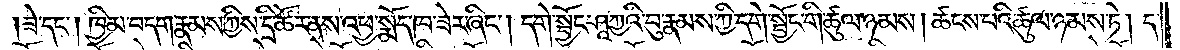ཟེ་དང༌། ཁྱིམ་བདག་རྣམས་ཀྱིས་དྲི་ཚོར་ནས་འཕྱ་སྨོད་ཁ་ཟེར་ཞིང༌། དགེ་སྦྱོང་ཤཱཀྱའི་བུ་རྣམས་ཀྱི་དགེ་སྦྱོང་གི་ཚུལ་ཉམས། ཚངས་པའི་ཚུལ་ཉམས་ཏེ། ད་
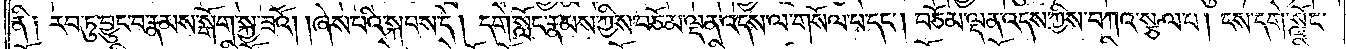ནི༑ རབ་ཏུ་བྱུང་བ་རྣམས་སྒོག་སྐྱ་ཟའོ། །ཞེས་པའི་སྐབས་དེ། དགེ་སློང་རྣམས་ཀྱིས་བཅོམ་ལྡན་འདས་ལ་གསོལ་པ་དང༌། བཅོམ་ལྡན་འདས་ཀྱིས་བཀའ་སྩལ་པ། ངས་དགེ་སློང་
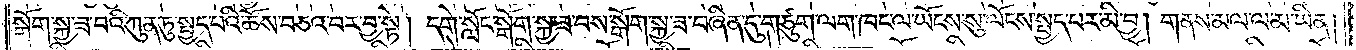སྒོག་སྐྱ་ཟ་བའི་ཀུན་ཏུ་སྤྱད་པའི་ཆོས་བཅའ་བར་བྱ་སྟེ། དགེ་སློང་སྒོག་སྐྱ་ཟ་བས་སྒོག་སྐྱ་ཟ་བཞིན་དུ་གཙུག་ལག་ཁང་ལ་ཡོངས་སུ་ལོངས་སྤྱད་པར་མི་བྱ། གནས་མལ་ལ་མ་ཡིན།
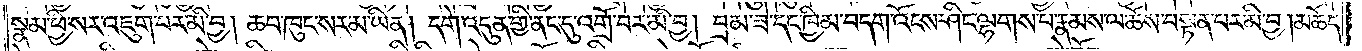སྣམ་ཕྱི་སར་འཇུག་པར་མི་བྱ། ཆབ་ཁུང་སར་མ་ཡིན། དགེ་འདུན་གྱི་ནང་དུ་འགྲོ་བར་མི་བྱ། བྲམ་ཟེ་དང་ཁྱིམ་བདག་འོངས་ཤིང་ལྷགས་པ་རྣམས་ལ་ཆོས་བསྟན་པར་མི་བྱ། མཆོད་
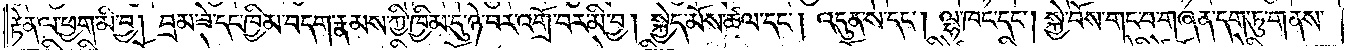རྟེན་ལ་ཕྱག་མི་བྱ། བྲམ་ཟེ་དང་ཁྱིམ་བདག་རྣམས་ཀྱི་ཁྱིམ་དུ་ཉེ་བར་འགྲོ་བར་མི་བྱ། སྐྱེད་མོས་ཚལ་དང༌། འདུན་ས་དང༌། ལྷ་ཁང་དང༌། སྐྱེ་བོས་གང་བ་གཞན་དག་ཏུ་གནས་
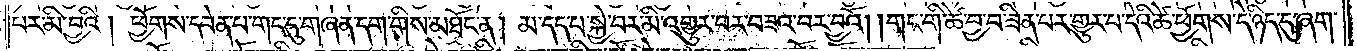པར་མི་བྱའི། ཕྱོགས་དབེན་པ་གང་དུ་གཞན་དག་གིས་མཐོང་ན། མ་དད་པ་སྐྱེ་བར་མི་འགྱུར་བར་བཟའ་བར་བྱའོ། །གང་གི་ཚེ་བྱ་བ་ཟིན་པར་གྱུར་པ་དེའི་ཚེ་ཕྱོགས་དེ་ཉིད་དུ་ཞག་
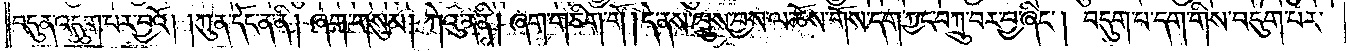བདུན་འདུག་པར་བྱའོ། །ཀུན་དོང་ན་ནི། ཞག་གསུམ། ཀེའུ་ན་ནི། ཞག་གཅིག་གོ །དེ་ནས་ཁྲུས་བྱས་ལ་ཆོས་གོས་དག་ཀྱང་བཀྲུ་བར་བྱ་ཞིང༌། བདུག་པ་དག་གིས་བདུག་པར་
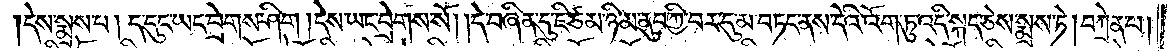དེས་སྨྲས་པ། ད་དུང་ཡང་བྲེགས་ཤིག །དེས་ཡང་བྲེགས་སོ། །དེ་བཞིན་དུ་ཇི་ཙམ་ཉི་མ་ནུབ་ཀྱི་བར་དུ་མ་བཏང་ནས་དེའི་འོག་ཏུ་འདི་སྐད་ཅེས་སྨྲས་ཏེ། བཀྲེན་པ།
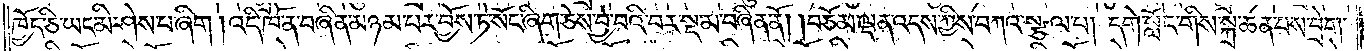ཁྱོད་ཅི་ཡང་མི་ཤེས་པ་ཞིག ། འདི་ཁོ་ན་བཞིན་མཉམ་པར་བྱོས་ཏེ་སོང་ཞིག་ཅེས་བྱ་བའི་བར་སྔ་མ་བཞིན་ནོ། །བཅོམ་ལྡན་འདས་ཀྱིས་བཀའ་སྩལ་པ། དགེ་སློང་གིས་སྐྲ་ཆན་པས་བྲེག་
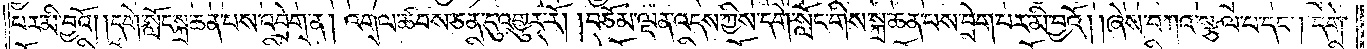པར་མི་བྱའོ། །དགེ་སློང་སྐྲ་ཆན་པས་འབྲེག་ན། འགལ་ཚབས་ཅན་དུ་འགྱུར་རོ། །བཅོམ་ལྡན་འདས་ཀྱིས་དགེ་སློང་གིས་སྐྲ་ཆན་པས་བྲེག་པར་མི་བྱའོ། །ཞེས་བཀའ་སྩལ་པ་དང༌། དགེ་
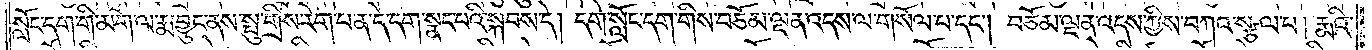སློང་དག་གི་མགོ་ལ་རྨ་བྱུང་ནས་སྤུ་གྲིས་རེག་པ་ན་དེ་དག་སྣང་བའི་སྐབས་དེ། དགེ་སློང་དག་གིས་བཅོམ་ལྡན་འདས་ལ་གསོལ་པ་དང༌། བཅོམ་ལྡན་འདས་ཀྱིས་བཀའ་སྩལ་པ། རྨའི་
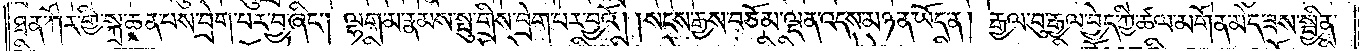ཐན་ཀོར་གྱི་སྐྲ་ཆན་པས་བྲེག་པར་བྱ་ཞིང༌། ལྷག་མ་རྣམས་སྤུ་གྲིས་བྲེག་པར་བྱའོ། །སངས་རྒྱས་བཅོམ་ལྡན་འདས་མཉན་ཡོད་ན། རྒྱལ་བུ་རྒྱལ་བྱེད་ཀྱི་ཚལ་མགོན་མེད་ཟས་སྦྱིན་
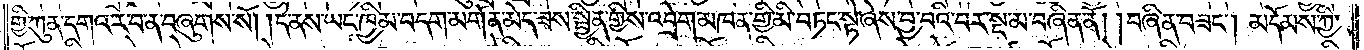གྱི་ཀུན་དགའ་ར་བ་ན་བཞུགས་སོ། །དེ་ནས་ཡང་ཁྱིམ་བདག་མགོན་མེད་ཟས་སྦྱིན་གྱིས་འབྲེག་མཁན་གྱི་མི་བཏང་སྟེ་ཞེས་བྱ་བའི་བར་སྔ་མ་བཞིན་ནོ། །བཞིན་བཟང༌། མདོམས་ཀྱི་
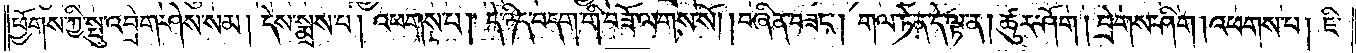ཕྱོགས་ཀྱི་སྤུ་འབྲེག་ཤེས་སམ། དེས་སྨྲས་པ། འཕགས་པ། དེ་ཉིད་བདག་གི་བཟོ་ལགས་སོ། །བཞིན་བཟང༌། གལ་ཏེ་ན་དེ་ལྟ་ན། ཚུར་ཤོག །བྲེགས་ཤིག །འཕགས་པ། ཇི་
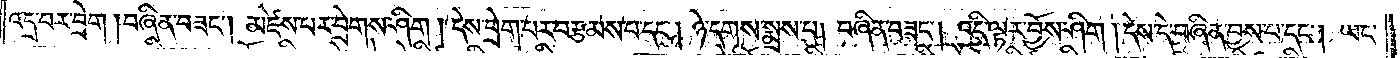འདྲ་བར་བྲེག །བཞིན་བཟང༌། མཛེས་པར་བྲེགས་ཤིག །དེས་བྲེག་པར་བརྩམས་པ་དང༌། ཉེ་དགས་སྨྲས་པ། བཞིན་བཟང༌། འདི་ལྟར་བྱོས་ཤིག །དེས་དེ་བཞིན་བྱས་པ་དང༌། ཡང་
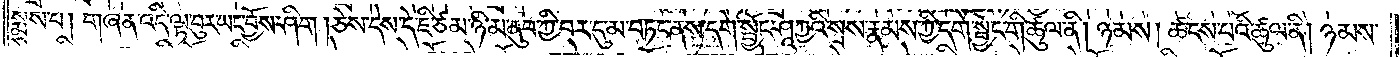སྨྲས་པ། གཞན་འདི་ལྟ་བུར་ཡང་བྱོས་ཤིག །ཅེས་དེས་དེ་ཇི་ཙམ་ཉི་མ་ནུབ་ཀྱི་བར་དུ་མ་བཏང་ནས་དགེ་སྦྱོང་ཤཱཀྱའི་སྲས་རྣམས་ཀྱི་དགེ་སྦྱོང་གི་ཚུལ་ནི། ཉམས། ཚངས་པའི་ཚུལ་ནི། ཉམས་
